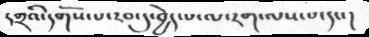དགྲའི་དགོས་པ་རབ་དུ་བྱེད་པ་ལ་རག་ལས་པ་དང་།
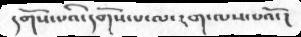དགོས་པའི་དགོས་པ་ལ་རག་ལས་པའོ་།
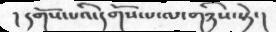།  དགོས་པའི་དགོས་པ་ལ་གཉིས་སྟེ་།
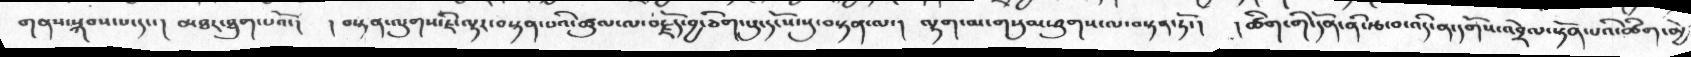གནས་སྐབས་པ་དང་།  མཐར་ཐུག་པའོ་།  ། བསྟན་ལུགས་ཇི་ལྟར་བསྟན་པའི་ཚུལ་ལ་བརྗོད་བྱ་ཅིག་པུ་དངོས་སུ་བསྟན་ལ་།  ལྷག་མ་གསུམཤུགས་ལ་བསྟན་ཏོ་།  ། ཚིག་གི་དོན་ནི་རྩ་བ་འདི་ན་དགོས་འབྲེལ་སྟོན་པའི་ཚིག་མྱེ
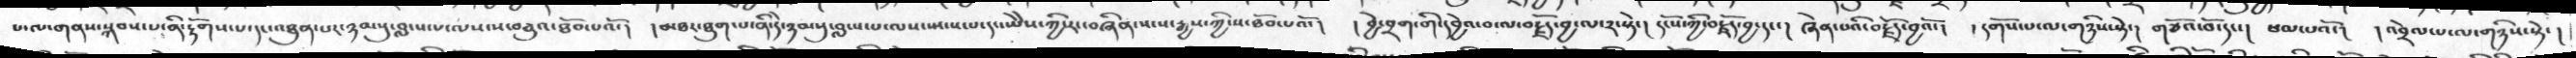པ་ལ་གནས་སྐབས་པ་ནི་རྟོགས་པ་དང་མཐུན་པར་ཉམསུ་བླངས་པ་ལས་ས་བཅུའ་ཐོབ་པའོ་།  །མཐར་ཐུག་པ་ནི་དེ་ཉམསུ་བླངས་པ་ལས་སྤངཔ་པ་དང་ཡཻས་ཀྱི་རང་བཞིན་སངས་རྒྱས་ཀྱི་ས་ཐོབ་པའོ་།  ། བྱེ་བྲག་གི་དབྱེའ་བ་ལ་བརྗོད་བྱ་ལ་༢་སྟེ་།  དངོས་ཀྱི་བརྗོད་བྱ་དང་། ཞེན་པའི་བརྗོད་བྱའོ་།  ་དགོས་པ་ལ་གཉིས་སྟེ་།  གཙོའ་བོ་དང་།  སྦམ་པའོ་།  ། འབྲེལ་པ་ལ་གཉིས་སྟེ་ །
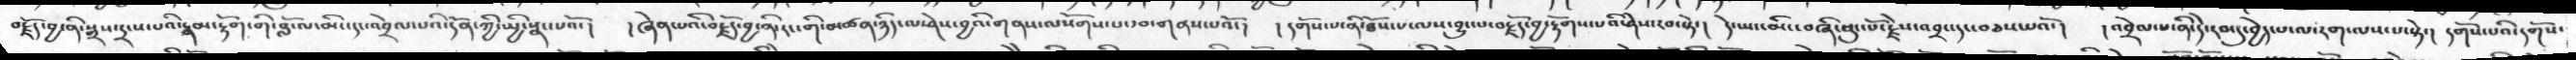བརྗོད་བྱ་ནི་སྒྲས་དྲངས་པའི་རྣམ་རྟོག་གི་བློ་ལ་མིང་དང་འབྲེལ་པའི་དོན་ཀྱི་སྤྱི་སྣང་པའོ་།  །ཞེན་པའི་བརྗོད་བྱ་ནི་རང་གི་མཚན་ཉིད་ལ་ཤེས་བྱའི་གནས་ལསོགས་པ་དབ་གནས་པའོ་།  ། དགོས་པ་ནི་ཐོས་པ་ལས་བྱུང་པ་བརྗོད་བྱ་རྟོགས་པའི་ཤེས་རབ་སྟེ་།  དེ་ཡང་མིང་བཞི་ཕུང་པོ་རྗེས་འབྲང་དང་བཅས་པའོ་།  ། འབྲེལ་པ་ནི་དེ་རབ་དུ་བྱེད་པ་ལ་རག་ལས་པ་སྟེ་།  དགོས་པའི་དགོས་
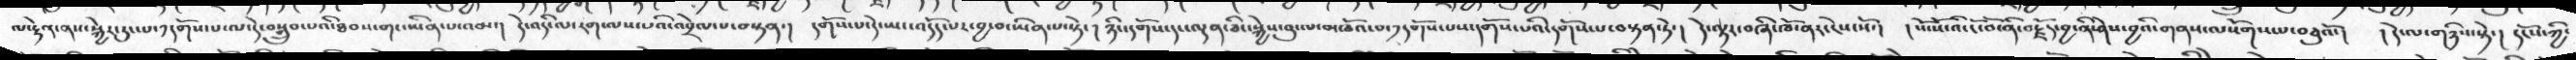ལ་རྟེན་ནས་སྐྱེར་རུང་པ་༡དགོས་པ་ལ་དེ་བསྒྲུབ་པའི་ཐབས་གང་ཡིན་པ་འམ་།  དེ་འདི་ལ་རག་ལས་པའི་འབྲེལ་པ་བསྟན་།  དགོས་པ་དེ་ཡང་འདོད་པར་བྱ་བ་ཡིན་པ་སྟེ་།  ཉིང་དགོས་དང་ལྡན་ཅིང་སྐྱེས་བུ་ལ་མཁོའ་བ་༡དགོས་པས་དགོས་པའི་དགོས་པ་བསྟན་ཏེ་།  དེ་ལྟར་བཞི་ཁོ་ནར་ངེས་སོ་།  ། སོ་སོ་འི་ངོ་བོ་ནི་བརྗོད་བྱ་ནི་ཤེས་བྱའི་གནས་ལསོགས་པ་བཅུའོ་།  །དེ་ལ་གཉིས་སྟེ་།  དངོས་ཀྱི་
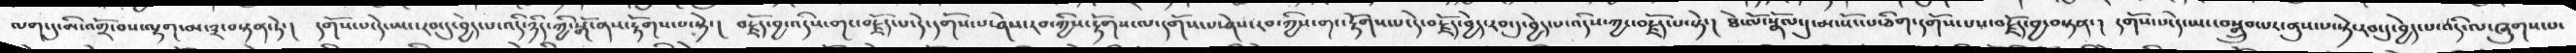ལག་དུ་མི་འགྲོ་བས་ལྷག་མ་༣་བསྟན་ཏེ་།  དགོས་པ་དེ་ཡང་རབ་དུ་བྱེད་པ་འདི་ཉིད་ཀྱི་སྒོ་ནས་རྟོགས་པ་སྟེ་།  བརྗོད་བྱ་འདིས་གང་བརྗོད་པ་དེ་དགོས་པ་ཤེས་རབ་ཀྱིས་རྟོགས་ལ་དགོས་པ་ཤེས་རབ་ཀྱིས་གང་རྟོགས་པ་དེ་བརྗོད་བྱེད་རབ་དུ་བྱེད་པ་འདིས་ཀྱང་བརྗོད་པ་སྟེ་།  ཐེ་མོ་སྣོལ་དུ་མ་སོང་པ་ཅིག་དགོས་པས་བརྗོད་བྱ་བསྟན་།  དགོས་པ་དེ་ཡང་བསྒྲུབ་པར་ནུས་པ་སྟེ་རབ་དུ་བྱེད་པ་འདི་ལ་ཞུགས་པ་
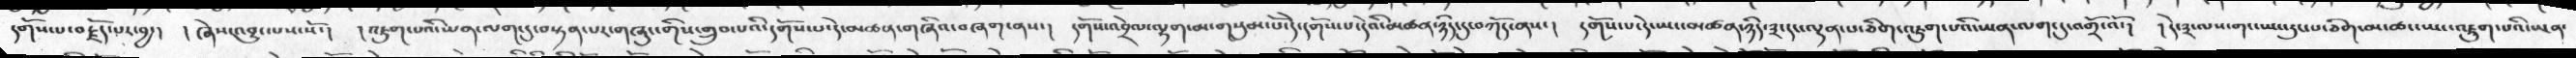དགོས་པ་བརྗོད་པར་བྱ་།   ། ཞེས་འབྱུང་པས་སོ་།   ། འཇུག་པའི་ཡན་ལག་དུ་བསྟན་པར་གཞུང་གིས་གྲུབ་པའི་དགོས་པ་དེ་མཆན་གཞིའ་བཞག་ནས་།  དགོས་འབྲེལ་ལྷག་མ་གསུམ་པོ་དེ་དགོས་པ་དེའི་མཚན་ཉིད་དུ་བཀོད་ནས་།  དགོས་པ་དེ་ཡང་མཚན་ཉིད་༣་དང་ལྡན་པ་ཅིག་འཇུག་པའི་ཡན་ལག་དུ་འགྲོ་འོ་།  ། དེ་༣་ལས་གང་ཡང་རུང་པ་ཅིག་མ་ཚང་ཡང་འཇུག་པའི་ཡན་
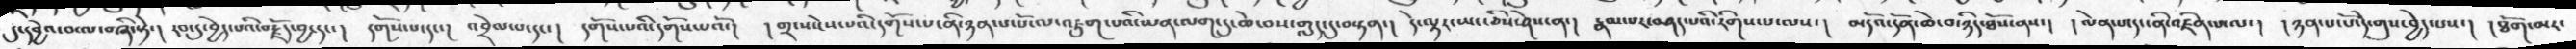དུ་དབྱེའ་བ་ལ་བཞི་ཏེ་་།  རབ་དུ་བྱེད་པའི་བརྗོད་བྱ་དང་།  དགོས་པ་དང་།  འབྲེལ་པ་དང་།  དགོས་པའི་དགོས་པའོ་།  །གྲངས་ངེས་པའི་དགོས་པ་ནི་ཉན་པ་པོ་ལ་འཇུག་པའི་ཡན་ལག་དུ་ཆེ་བས་གླད་དུ་བསྟན་།  དེ་ལྟར་ཡང་ཅིས་ཤེས་ན་།  རྣམ་པར་བཤད་པའི་རིགས་པ་ལས་།   མདོའ་དོན་ཆེ་བ་ཉིད་ཐོས་ནས་།  །ལེན་པ་དང་ནི་འཛིན་པ་ལ་།  །ཉན་པ་པོ་དེ་གུས་བྱེད་པས་།  །ཐོག་མར་
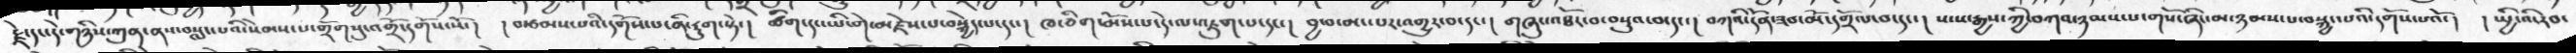རྗེ་དང་དེ་གཉིས་ཀུན་ནས་བསླང་པའི་སེམས་པ་གྲོགསུ་འགྲོ་དགོས་སོ་།   །བརྩམས་པའི་དགོས་པ་ནི་དྲུག་སྟེ་།   ཚིག་དང་ཡི་གེ་མཛེས་པ་བསྐྱེད་པ་དང་།   ཁ་ཅིག་མོས་པ་དེ་ལ་འཇུག་པ་དང་།  བྱ་བ་མང་པར་འགྱུར་བ་དང་།   གཞུང་འཐོར་བ་བསྡུའ་པ་དང་།    བཀའི་དོན་ཟབ་མོ་དགྲོལ་བ་དང་།   སངས་རྒྱས་ཀྱི་བཀའ་ཉམས་པ་གསོ་ཞིང་མ་ཉམས་པ་བསྐྱང་པའི་དགོས་པའོ་།   །སྤྱི་འི་རབ་
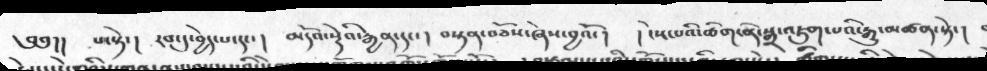༄༅།།   པ་སྟེ་།  རབ་དུ་བྱེད་པ་དང་།   མདོའ་སྡེའི་རྒྱན་དང་།   བསྟན་བཅོས་ཞེས་བྱའོ་།   །ངེས་པའི་ཚིག་ནི་སྒྲ་འཇུག་པའི་རྒྱུ་མཚན་སྟེ་།
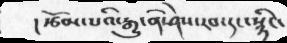། རྩོམ་པའི་རྒྱུ་ནི་ཤེས་རབ་དང་སྙིང་
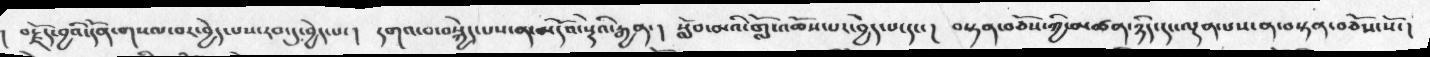། བརྗོད་བྱའི་དོན་གསལ་བར་བྱེད་པས་རབ་དུ་བྱེད་པ་།  དགའ་བ་བསྐྱེད་པས་ན་མདོའ་སྡེའི་རྒྱན་།  སློབ་མའི་གློ་འཆོས་པར་བྱེད་པ་དང་།  བསྟན་བཅོས་ཀྱི་མཚན་ཉིད་དང་ལྡན་པས་ན་བསྟན་བཅོས་སོ་།
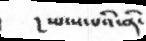། སྤངས་པའི་ནི་
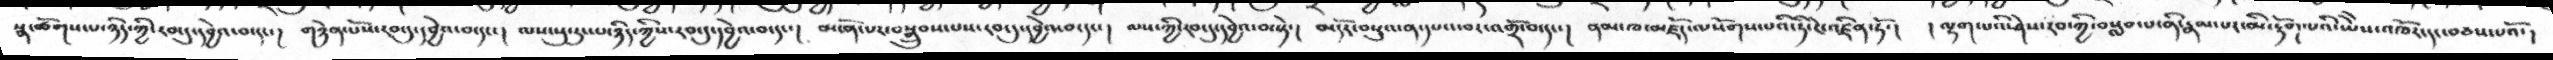སྣ་ཚོགས་པ་ཉིད་ཀྱི་རབ་དུ་དབྱེའ་བ་དང་།  གཉེན་པོས་རབ་དུ་དབྱེའ་བ་དང་།  ལས་སུ་རུང་པ་ཉིད་ཀྱིས་རབ་དུ་དབྱེའ་བ་དང་།  མངོན་པར་བསྒྲུབས་པས་རབ་དུ་དབྱེའ་བ་དང་།  ལས་ཀྱི་རབ་དུ་དབྱེའ་བ་སྟེ་།  མདོར་བསྡུས་ན་དཔལ་བར་འགྲོ་བ་དང་།  ནམ་ཁ་མཛོད་ལསོགས་པའི་ཏི་ངེ་འཛིན་ཏོ་།  ། ལྷག་པའི་ཤེས་རབ་ཀྱི་བསླབ་པ་ནི་རྣམ་པར་མི་རྟོགས་པའི་ཡཻས་འཁོར་དང་བཅས་པའོ་།
